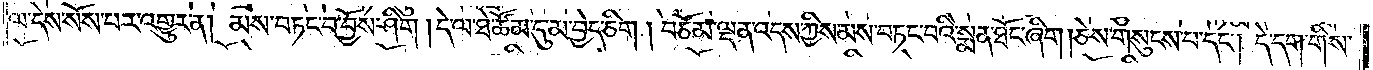ལ་དེས་སོས་པར་འགྱུར་ན། མས་བཏང་བ་བྱོས་ཤིག །དེ་ལ་ཐེ་ཚོམ་དུ་མ་བྱེད་ཅིག །བཅོམ་ལྡན་འདས་ཀྱིས་མས་བཏང་བའི་སྨན་ཐོང་ཞིག །ཅེས་གསུངས་པ་དང༌། དེ་དག་གིས་
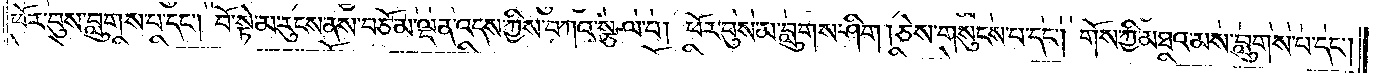ཕོར་བུས་བླུགས་པ་དང༌། བོ་སྟེ་མ་རུངས་ནས་བཅོམ་ལྡན་འདས་ཀྱིས་བཀའ་སྩལ་པ། ཕོར་བུས་མ་བླུགས་ཤིག །ཅེས་གསུངས་པ་དང༌། གོས་ཀྱི་མཐའ་མས་བླུགས་པ་དང༌།
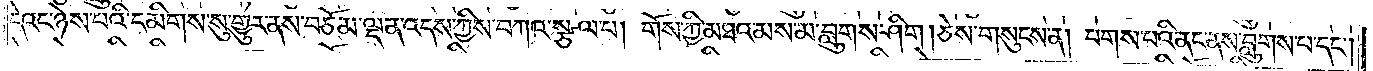དེའང་ཉེས་པའི་དམིགས་སུ་གྱུར་ནས་བཅོམ་ལྡན་འདས་ཀྱིས་བཀའ་སྩལ་པ། གོས་ཀྱི་མཐའ་མས་མ་བླུགས་ཤིག །ཅེས་གསུངས་ན། པགས་པའི་ནང་ནས་བླུགས་པ་དང༌།
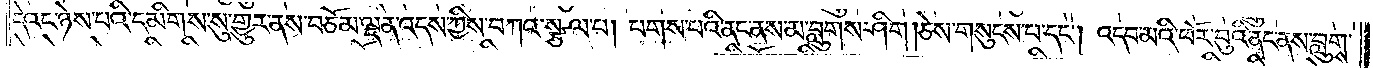དེའང་ཉེས་པའི་དམིགས་སུ་གྱུར་ནས་བཅོམ་ལྡན་འདས་ཀྱིས་བཀའ་སྩལ་པ། པགས་པའི་ནང་ནས་མ་བླུགས་ཤིག །ཅེས་གསུངས་པ་དང༌། འདབ་མའི་ཕོར་བུའི་ནང་ནས་བླུགས་
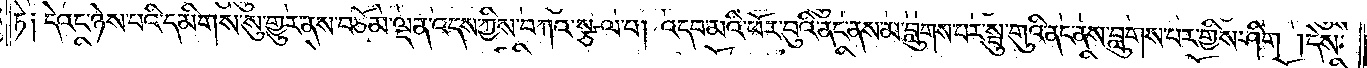ཏེ༑ དེའང་ཉེས་དམིགས་སུ་གྱུར་ནས་བཅོམ་ལྡན་འདས་ཀྱིས་བཀའ་སྩལ་པ། འདབ་མའི་ཕོར་བུའི་ནང་ནས་མ་བླུགས་པར་སྤུ་གུའི་ནང་ནས་བླུགས་པར་གྱིས་ཤིག །དེས་
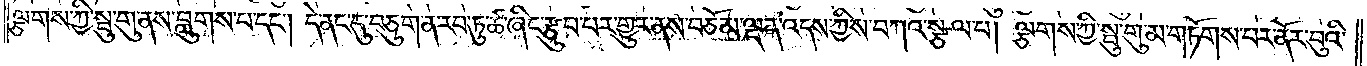ལྕགས་ཀྱི་སྤུ་གུ་ནས་བླུགས་པ་དང༌། དེ་ནང་དུ་བཅུག་ན་རབ་ཏུ་ཚ་ཞིང་རྩུབ་པར་གྱུར་ནས་བཅོམ་ལྡན་འདས་ཀྱིས་བཀའ་སྩལ་པ། ལྕགས་ཀྱི་སྤུ་གུ་མ་གཏོགས་པར་ནོར་བུའི་
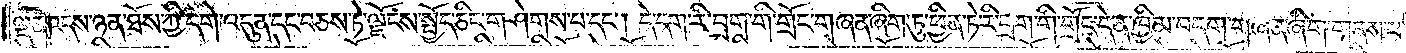ལྡན་འདས་ཉན་ཐོས་ཀྱི་དགེ་འདུན་དང་བཅས་ཏེ་ལྗོངས་སྤྱོད་ཅིང་གཤེགས་པ་དང༌། དེ་དག་རི་བྲག་གི་གྲོང་གཞན་ཞིག་ཏུ་ཕྱིན་ཏེ་རི་བྲག་གི་གྲོང་དེ་ན་ཁྱིམ་བདག་གཞན་ཞིག་གནས་པ་
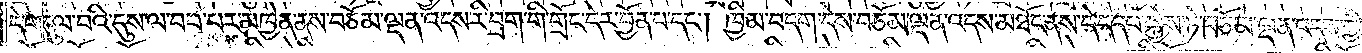དེ་གདུལ་བའི་དུས་ལ་བབ་པར་མཁྱེན་ནས་བཅོམ་ལྡན་འདས་རི་བྲག་གི་གྲོང་དེར་བྱོན་པ་དང༌། ཁྱིམ་བདག་དེས་བཅོམ་ལྡན་འདས་མཐོང་ནས་དེ་དད་པ་སྐྱེས་ཏེ་བཅོམ་ལྡན་འདས་ཀྱི་
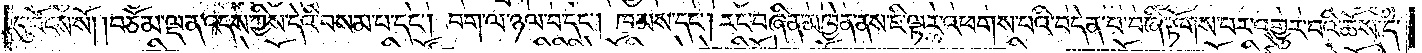དྲུང་དུ་འོངས་སོ། །བཅོམ་ལྡན་འདས་ཀྱིས་དེའི་བསམ་པ་དང༌། བག་ལ་ཉལ་བ་དང༌། ཁམས་དང༌། རང་བཞིན་མཁྱེན་ནས་ཇི་ལྟར་འཕགས་པའི་བདེན་པ་བཞི་རྟོགས་པར་འགྱུར་བའི་ཆོས་དེ་
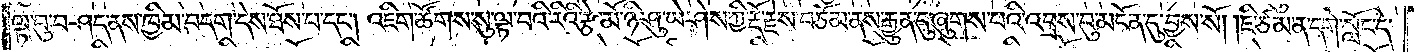ལྟ་བུ་བཤད་ནས་ཁྱིམ་བདག་དེས་ཐོས་པ་དང༌། འཇིག་ཚོགས་སུ་ལྟ་བའི་རིའི་རྩེ་མོ་ཉི་ཤུ་ཡེ་ཤེས་ཀྱི་རྡོ་རྗེས་བཅོམ་ནས་རྒྱུན་དུ་ཞུགས་པའི་འབྲས་བུ་མངོན་དུ་བྱས་སོ། །ཇི་ཙམ་ན་དགེ་སློང་དེ་
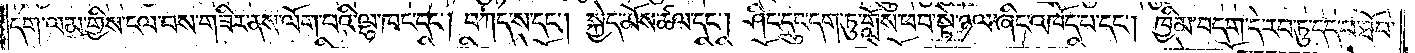དག་ལམ་གྱིས་ངལ་བས་གཟིར་ནས་ལོག་པའི་ལྷ་ཁང་དང༌། བཀད་ས་དང༌། སྐྱེད་མོས་ཚལ་དང༌། ཤིང་དྲུང་དག་ཏུ་གློས་ཕབ་སྟེ་ཉལ་ཞིང་འཁོད་པ་དང༌། ཁྱིམ་བདག་དེ་རབ་ཏུ་དད་པ་ཐོབ་
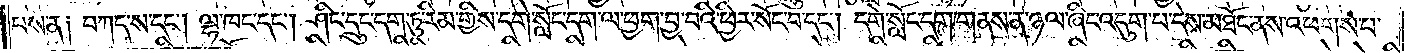པས་ན༑ བཀད་ས་དང༌། ལྷ་ཁང་དང༌། ཤིང་དྲུང་དག་ཏུ་རིམ་གྱིས་དགེ་སློང་དག་ལ་ཕྱག་བྱ་བའི་ཕྱིར་སོང་བ་དང༌། དགེ་སློང་དག་གནས་ན་ཉལ་ཞིང་འདུག་པ་དེས་མཐོང་ནས་འཕགས་པ་
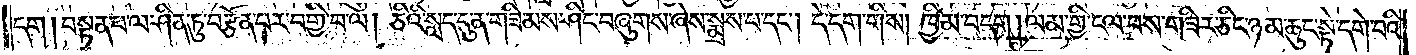དག །བསྟན་པ་ལ་ཤིན་ཏུ་བརྩོན་པར་བགྱི་བ་ལ། ཅིའི་སླད་དུ་ན་གཟིམས་ཤིང་བཞུགས་ཞེས་སྨྲས་པ་དང༌། དེ་དག་གིས། ཁྱིམ་བདག །ལམ་གྱི་ངལ་བས་གཟིར་ཅིང་ཉམ་ཆུང་སྟེ་དགེ་བའི་
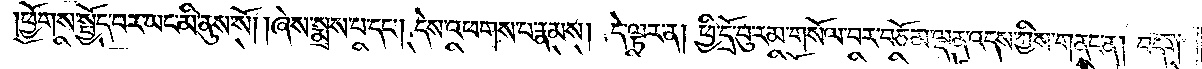ཕྱོགས་སྤྱོད་བར་ཡང་མི་ནུས་སོ། །ཞེས་སྨྲས་པ་དང༌། དེས་འཕགས་པ་རྣམས། དེ་ལྟར་ན། ཕྱི་དྲོ་བུ་རམ་གསོལ་བར་བཅོམ་ལྡན་འདས་ཀྱིས་གནང་ན། བདག་
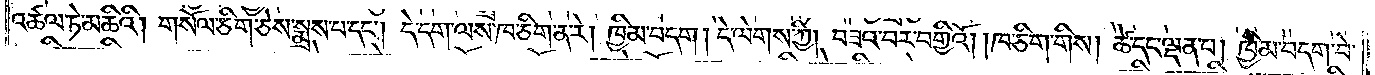འཚལ་ཏེ་མཆིའི། གསོལ་ཅིག་ཅེས་སྨྲས་པ་དང༌། དེ་དག་ལས་ཁ་ཅིག་ན་རེ། ཁྱིམ་བདག། དེ་ལེགས་ཀྱི། བཟའ་བར་བགྱིའོ། །ཁ་ཅིག་གིས། ཚེ་དང་ལྡན་པ། ཁྱིམ་བདག་བེ་
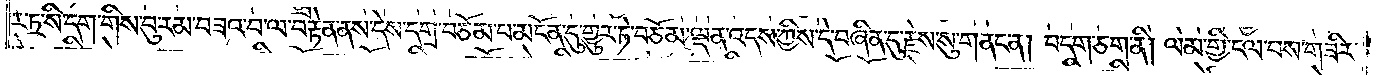ར་ཏྲ་སི་དག་གིས་བུ་རམ་བཟའ་བ་ལ་བརྟེན་ནས་དེས་དགྲ་བཅོམ་པ་མངོན་དུ་གྱུར་ཏེ་བཅོམ་ལྡན་འདས་ཀྱིས་དེ་བཞིན་དུ་རྗེས་སུ་གནང་ན། བདག་ཅག་ནི། ལམ་གྱི་ངལ་བས་གཟིར་
